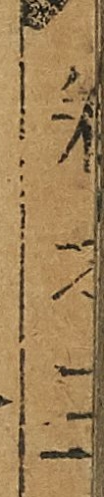卷之三
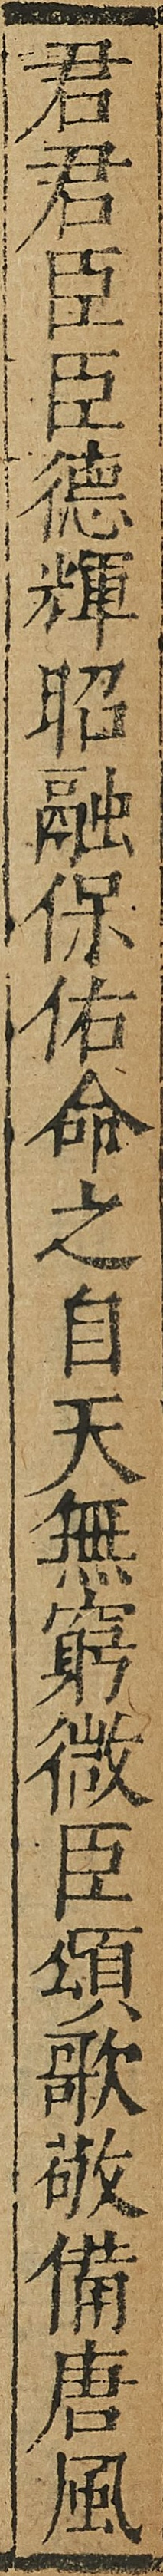君君臣臣德輝昭融保佑命之白天無窮微臣頌歌敬備唐風
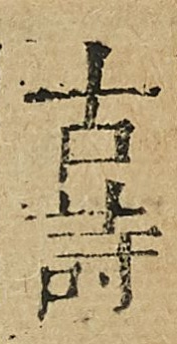古詩
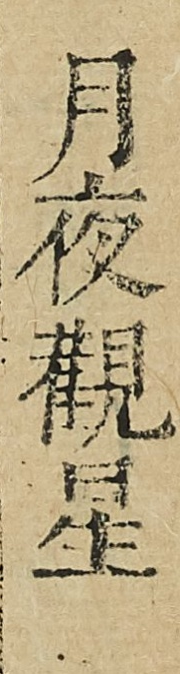隋煬帝
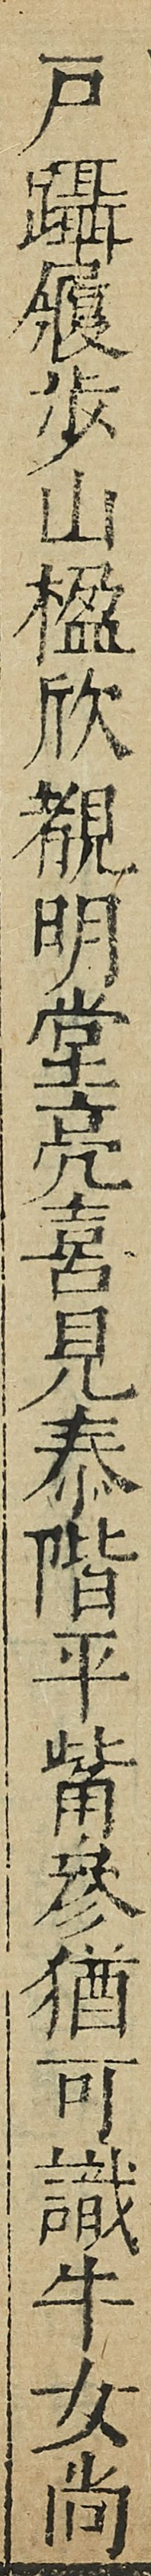戸躡襞歩山楹欣覩明堂亮喜見恭階平觜參猶可識牛女尚
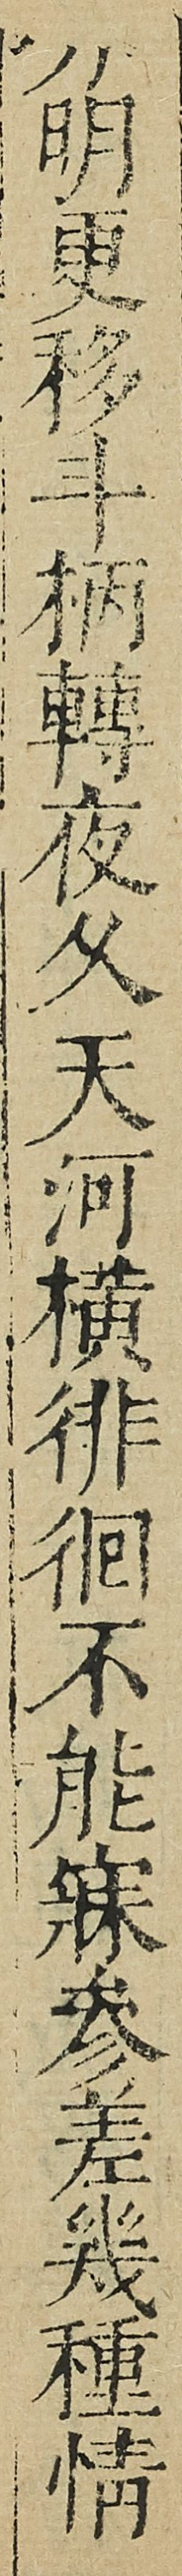分明更移斗柄轉夜久天河横徘徊不能寐參差幾種情
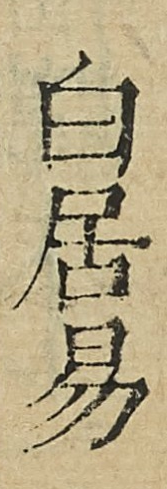白居易
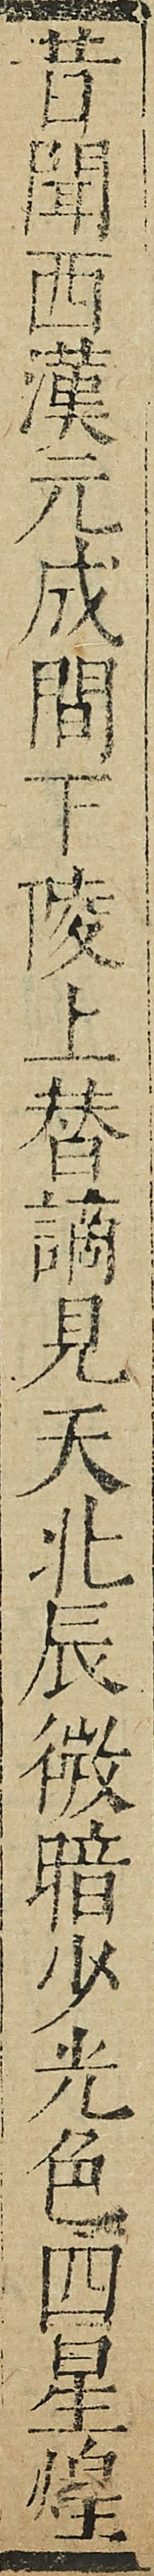昔關西漢元成間下陵上替謫見天北辰微暗少光色四星煌
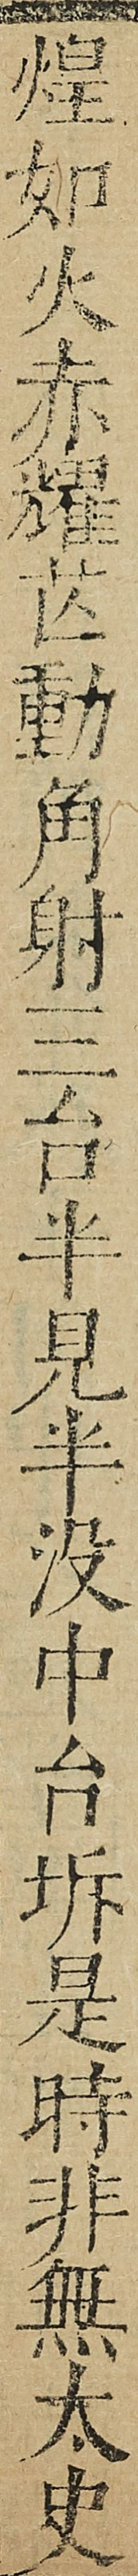煌如火赤耀芒動角射三台半见半没中台坼是時非無太史
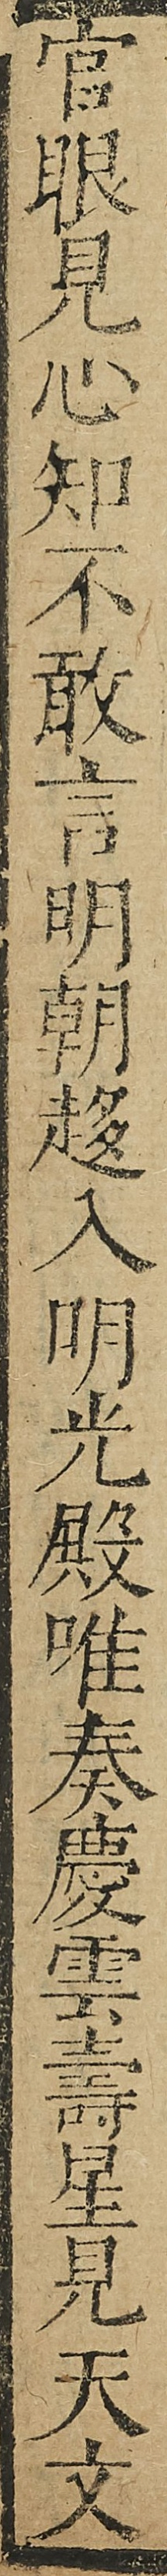官职見心知不敢言明朝超入明光殿唯奏慶雲壽星見天文
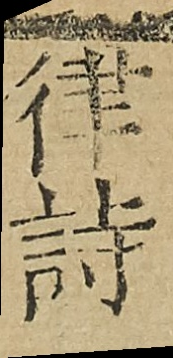律詩
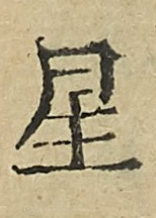星
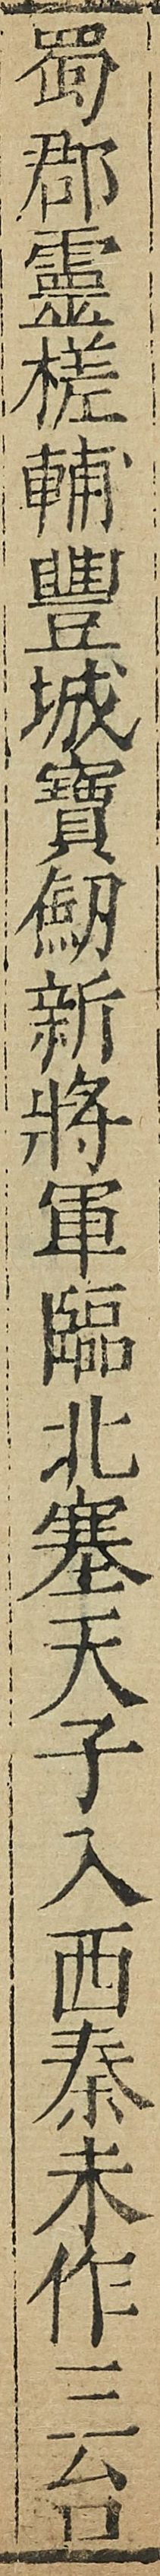蜀郡靈槎輔豐城寶鱽新將軍臨北塞天子入西秦未作三台
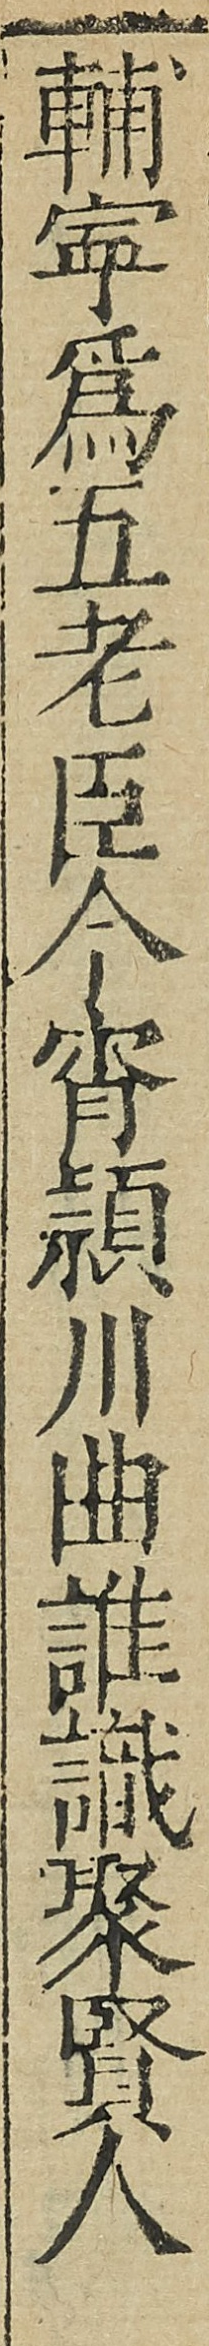輔寧爲五老臣今宵穎川曲誰識聚䝨人
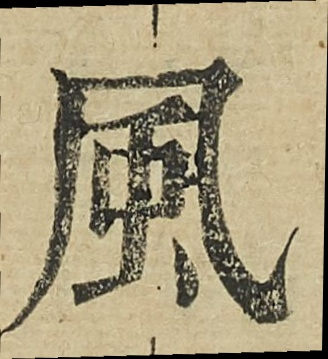風
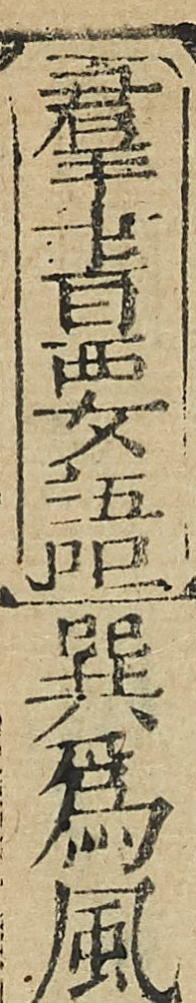君平要語巽為風
